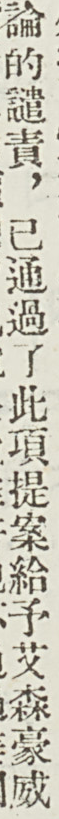論的譴責，已通過了此項提案給予艾森豪威
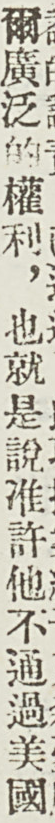爾廣泛的權利，也就是說准許他不通過美國
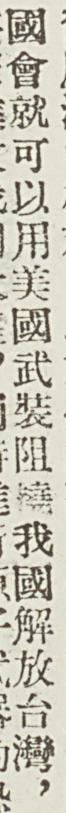國會就可以用美國武裝阻撓我國解放台灣，
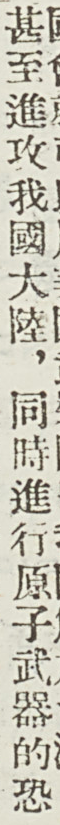甚至進攻我國大陸，同時進行原子武器的恐
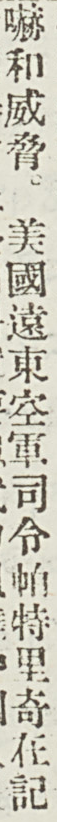嚇和威脅。美國遠東空軍司令帕特里奇在記
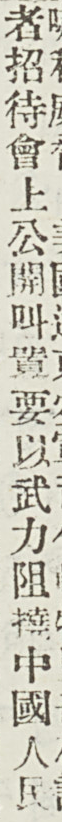者招待會上共開叫囂要以武力阻撓中國人民
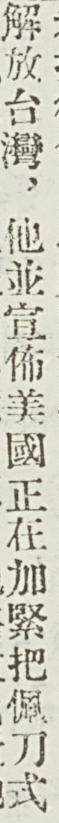解放台灣，他並宣佈美國正在加緊把佩刀式
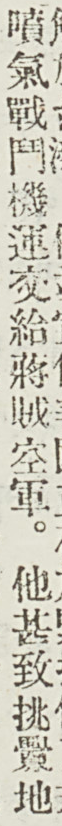噴氣戰鬥機運交給蔣賊空軍。他甚致挑釁地
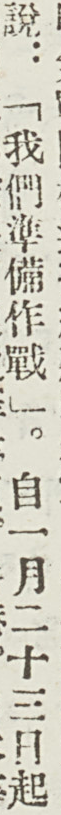說：「我們準備作戰」。自一月二十三日起
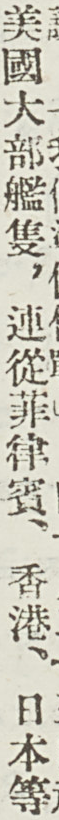美國大部艦隻，連從菲律賓、香港、日本等
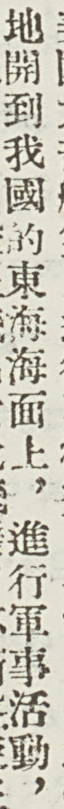地開到我國的東海海面上，進行軍事活動，
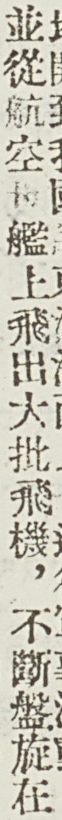並從航空母艦上飛出大批飛機，不斷盤旋在
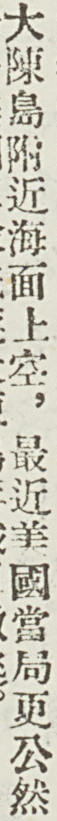大陳島附近海面上空，最近美國當局更公然
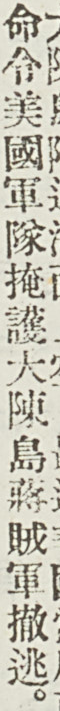命令美國軍隊掩護大陳島蔣賊軍撤逃。
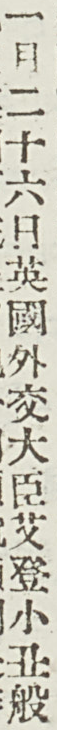一月二十六日英國外交大臣艾登小丑般
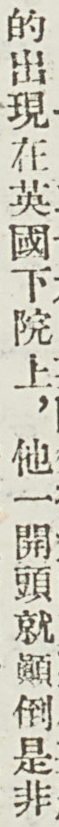的出現在英國下院上，他一開頭就顛倒是非
